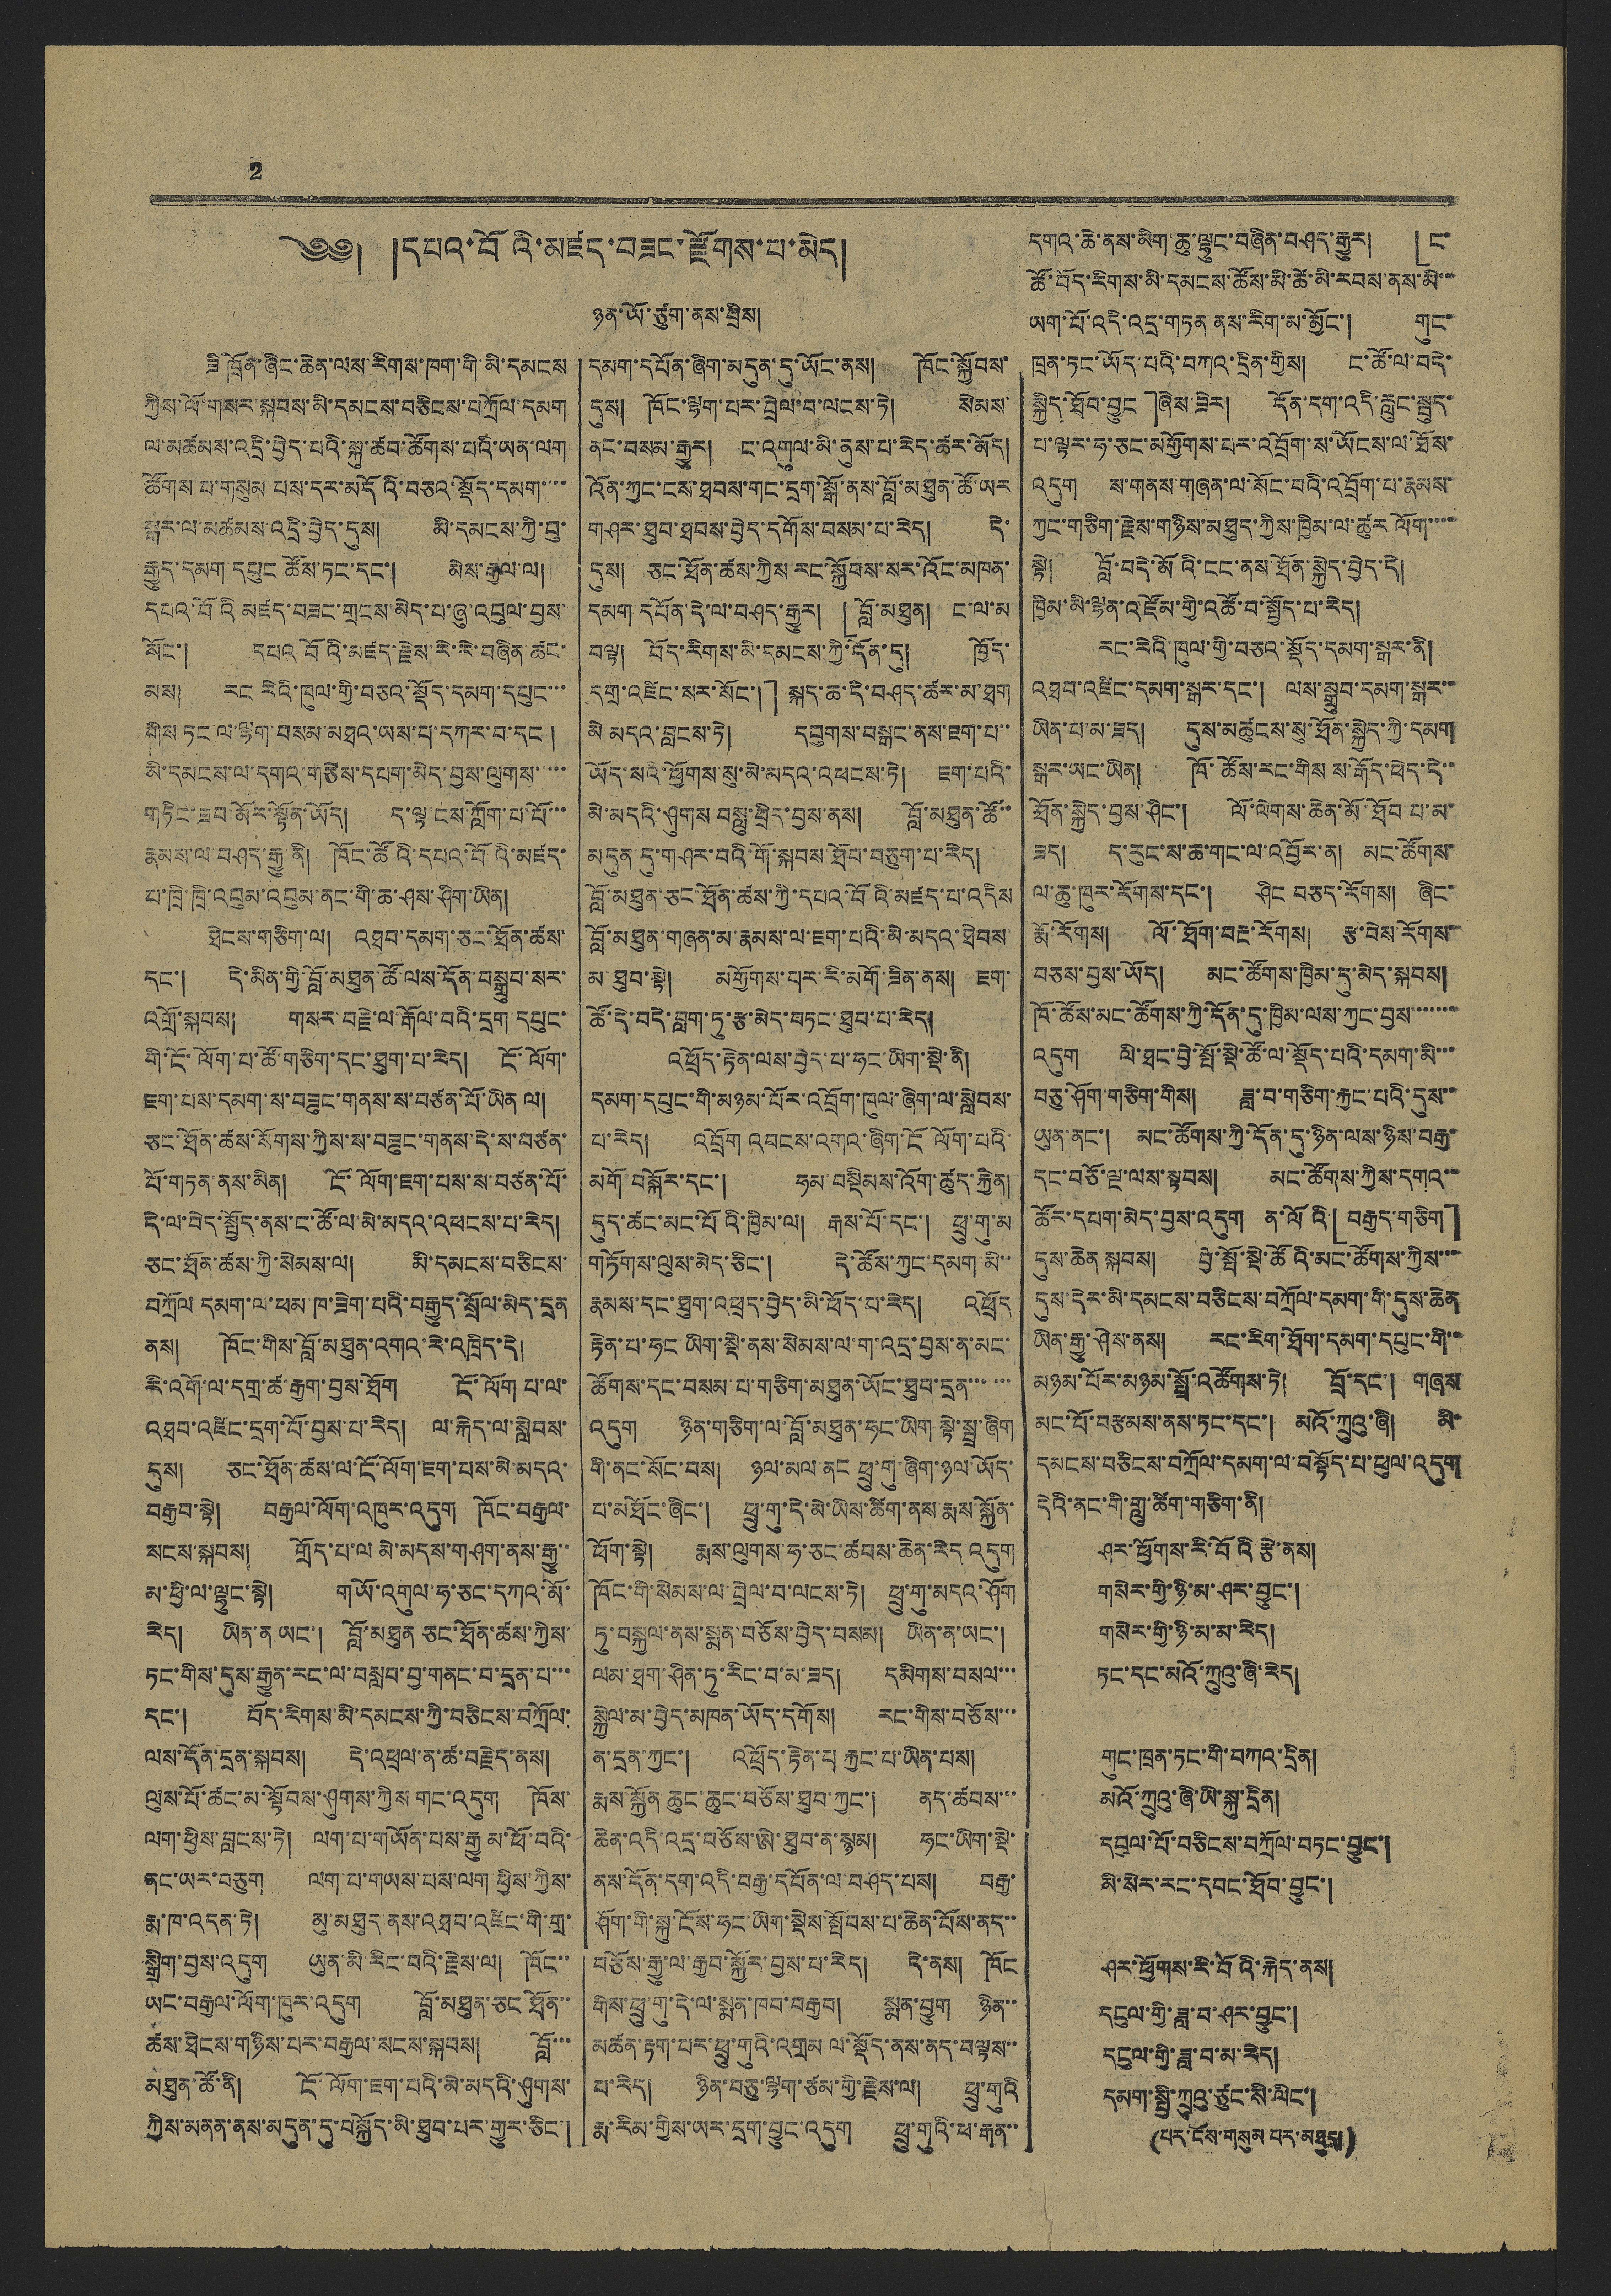2
༄༅། །དཔའ་བོའི་མཛད་བཟང་རྫོགས་པ་མེད།
ཉན་ཡོ་ཙུག་ནས་བྲིས།
ཟི ཁྲོན་ཞིང་ཆེན་ལས་རིགས་ཁག་གི་མི་དམངས
ཀྱིས་ལོ་གསར་སྐབས་མི་དམངས་བཅིངས་བཀྲོལ་དམག
ལ་མཚམས་འདྲི་བྱེད་པའི་སྐུ་ཚབ་ཚོགས་པའི་ཡན་ལག
ཚོགས་པ་གསུམ པས་དར་མདོའི་བཅའ་སྡོད་དམག་་་་
སྒར་ལ་མཚམས་འདྲི་བྱེད་དུས། མི་དམངས་ཀྱི་བུ་
རྒྱུད་དམག་དཔུང ཚོས་ཏང་དང་། མེས་རྒྱལ་ལ།
དཔའ་བོའི་མཛད་བཟང་གྲངས་མེད་པ་ཞུ་འབུལ་བྱས་
སོང་། དཔའ བོའི་མཛད་རྗེས་རེ་རེ་བཞིན་ཚང་
མས། རང རེའི་ཁུལ་གྱི་བཅའ་སྡོད་དམག་དཔུང་་་
གིས ཏང་ལ་ལྷག་བསམ་མཐའ་ཡས་པ་དཀར་བ་དང །
མི་དམངས་ལ་དགའ་གཙེས་དཔག་མེད་བྱས་ལུགས་་་་་
གཏིང་ཟབ་མོར་སྟོན་ཡོད། ད་ལྟ ངས་ཀློག་པ་པོ་་་
རྣམས་ལ་བཤད་རྒྱུ་ནི། ཁོང་ཚོའི་དཔའ་བོའི་མཛད་
པ་ཁྲི་ཁྲི་འབུམ་འབུམ་ནང་གི་ཆ་ཤད་ཤིག་ཡིན།
ཐེངས་གཅིག་ལ། འཐབ་དམག་ཅང་ཐོན་ཚས་
དང་། དེ་མིན་གྱི་བློ་མཐུན་ཚོ་ལས་དོན་བསྒྲུབ་སར་
འགྲོ་སྐབས། གསར་བརྗེ་ལ་རྒོལ་བའི་དྲག དཔུང་
གི་ངོ་ལོག་པ་ཚོ་གཅིག་དང་ཐུག་པ་རེད། ངོ་ལོག་
ཇག་པས་དམག་ས་བཟུང་གནས་ས་བཙན་པོ་ཡིན ལ།
ཅང་ཐོན་ཚས་སོགས་ཀྱིས་ས་བཟུང་གནས་དེ་ས་བཙན་
པོ་གཏན་ནས་མིན། ངོ་ལོག་ཇག་པས་ས་བཙན་པོ་
དེ་ལ་བེད་སྤྱོད་ནས་ང་ཚོ་ལ་མེ་མདའ་འཕངས་པ་རེད།
ཅང་ཐོན་ཚས་ཀྱི་སེམས་ལ། མི་དམངས་བཅིངས་
བཀྲོལ དམག་ལ་ཕམ་ཁ་ཟེག་པའི་བརྒྱུད་སྲོལ་མེད་དྲན
ནས། ཁོང་གིས་བློ་མཐུན་འགའ་རེ་འཁྲིད་དེ།
རི་འགོ་ལ་དགྲ་ཚ་རྒྱག་བྱས་ཐོག ངོ་ལོག པ་ལ་
འཐབ་འཛིང་དྲག་པོ་བྱས་པ་རེད། ལ་རྐེད་ལ་སླེབས་
དུས། ཅང་ཐོན་ཚས་ལ་ངོ་ལོག་ཇག་པས་མེ་མདའ་
བརྒྱབ་སྟེ། བརྒྱལ་ལོག་འཁུར་འདུག ཁོང་བརྒྱལ་
སངས་སྐབས། གྲོད་པ་ལ མེ་མདས་གཤག་ནས་རྒྱུ་་
མ་ཕྱི་ལ་ལྷུང་སྟེ། གཡོ་འགུལ་ཧ་ཅང་དཀའ་མོ་
རེད། ཡིན་ན ཡང་། བློ་མཐུན ཅང་ཐོན་ཚས་ཀྱིས
ཏང་གིས་དུས་རྒྱུན་རང་ལ་བསླབ་བྱ་གནང་བ་དྲན་པ་་་
དང་། བོད་རིགས་མི་དམངས་ཀྱི་བཅིངས་བཀྲོལ་
ལས་དོན་དྲན་སྐབས། དེ་འཕྲལ་ན་ཚ་བརྗེད་ནས།
ལུས་པོ་ཚང་མ་སྟོབས་ཤུགས་ཀྱིས གང་འདུག ཁོས་
ལག་ཕྱིས་བླངས་ཏེ། ལག་པ་གཡོན་པས་རྒྱུ མ་ཕོ་བའི་
ནང་ཡར་བཅུག ལག་པ་གཡས་པས་ལག ཕྱིས་ཀྱིས་
རྨ་ཁ་འདན་ཏེ། མུ་མཐུད ནས་འཐབ་འཛིང་གི་གྲ་
སྒྲིག་བྱས་འདུག ཡུན་མི་རིང་བའི་རྗེས་ལ། ཁོང་་
ཡང་བརྒྱལ་ལོག་ཁུར་འདུག བློ་མཐུན་ཅང ཐོན་་
ཚས་ཐེངས་གཉིས་པར་བརྒྱལ་སངས་སྐབས། བློ་་་
མཐུན་ཚོ་ནི། ངོ་ལོག་ཇག་པའི་མེ་མདའི་ཤུགས་
ཀྱིས་མནན་ནས་མདུན་དུ་བསྐྱོད་མི་ཐུབ་པར་གྱུར་ཅིང་།
དམག་དཔོན་ཞིག་མདུན་དུ་ཡོང་ནས། ཁོང་སྐྱོབས་
དུས། ཁོང་ལྷག་པར་བྲེལ་བ་ལངས་ཏེ། སེམས་
ནང་བསམ་རྒྱུར། ང་འགུལ་མི་ནུས་པ་རེད་ཚར་མོད།
འོན་ཀྱང་ངས་ཐབས་གང་དྲག་སྒོ་ནས་བློ་མཐུན་ཚོ་ཡར
གཤར་ཐུབ་ཐབས་བྱེད་དགོས་བསམ་པ་རེད། དེ་
དུས། ཅང་ཐོན་ཚས་ཀྱིས རང་སྐྱོབས་སར་འོང་མཁན་
དམག དཔོན་དེ་ལ་བཤད་རྒྱུར། 「བློ་མཐུན། ང་ལ་མ
བལྟ། བོད་རིགས་མི་དམངས་ཀྱི་དོན་དུ། ཁྱོད་
དགྲ་འཛིང་སར་སོང་།」སྐད་ཆ་དེ་བཤད་ཚར་མ་ཐག
མེ མདའ་བླངས་ཏེ། དབུགས་བསྒང་ནས་ཇག་པ་་
ཡོད་སའི་ཕྱོགས་སུ་མེ་མདའ་འཕངས་ཏེ། ཇག་པའི་
མེ་མདའི་ཤུགས བསླུ་བྲིད་བྱས་ནས། བློ་མཐུན་ཚོ་་
མདུན་དུ་གཤར་བའི་གོ་སྐབས་ཐོབ་བཅུག་པ་རེད།
བློ་མཐུན་ཅང་ཐོན་ཚས་ཀྱི་དཔའ་བོའི་མཛད་པ་འདིས
བློ་མཐུན་གཞན་མ་རྣམས་ལ་ཇག་པའི་མེ་མདའ་ཐེབས་
མ་ཐུབ་སྟེ། མགྱོགས་པར་རི་མགོ་ཟིན་ནས། ཇག་
ཚོ་དེ་བདེ་བླག་ཏུ་རྩ་མེད་བཏང་ཐུབ་པ་རེད།
འཕྲོད་རྟེན་ལས་བྱེད་པ་ཧང་ཡིག་སྡེ་ནི།
དམག་དཔུང་གི་མཉམ་པོར་འབྲོག་ཁུལ་ཞིག་ལ་སླེབས་
པ་རེད། འབྲོག འབངས་འགའ་ཞིག་ངོ ལོག་པའི་
མགོ བསྐོར་དང་། ཧམ་བསྡིམས་འོག་ཚུད་རྐྱེན།
དུད་ཚང་མང་པོའི་ཁྱིམ་ལ། རྒས་པོ་དང་། ཕྲུ་གུ་མ
གཏོགས་ལུས་མེད་ཅིང་། དེ་ཚོས་ཀྱང་དམག་མི་་
རྣམས་དང་ཐུག་འཕྲེད་བྱེད་མི་ཕོད་པ་རེད། འཕྲོད
རྟེན་པ་ཧང ཡིག་སྡེ་ནས་སེམས་ལ་ག་འདྲ་བྱས་ན་མང་
ཚོགས་དང་བསམ་པ་གཅིག་མཐུན་ཡོང་ཐུབ་དྲན་་་་་་
འདུག ཉིན་གཅིག་ལ་བློ་མཐུན་ཧང་ཡིག་སྟེ་སྦྲ་ཞིག
གི་ནང་སོང་བས། ཉལ་མལ་ནང ཕྲུ་གུ་ཞིག་ཉལ་ཡོད་
པ་མཐོང་ཞིང་། ཕྲུ་གུ་དེ་མེ་ཡིས་ཚིག་ནས་རྨས་སྐྱོན་
ཕོག་སྟེ། རྨས་ལུགས་ཧ་ཅང་ཚབས་ཆེན་རེད འདུག
ཁོང་གི་སེམས་ལ་བྲེལ་བ་ལངས་ཏེ། ཕྲུ་གུ་མདའ་ཤོག
ཏུ་བསྐྱལ་ནས་སྨན་བཅོས་བྱེད་བསམ། ཡིན་ན་ཡང་།
ལམ་ཐག་ཤིན་ཏུ་རིང་བ་མ་ཟད། དམིགས་བསལ་་་
སྐྱེལ་མ་བྱེད་མཁན་ཡོད་དགོས། རང་གིས་བཅོས་་་
ན་དྲན་ཀྱང་། འཕྲོད་རྟེན་པ རྐྱང་པ་ཡིན་པས།
རྨས་སྐྱོན ཆུང་ཆུང་བཅོས་ཐུབ་ཀྱང་། ནད་ཚབས་་་
ཆེན་འདི་འདྲ་བཅོས་ཨེ་ཐུབ་ན་སྙམ། ཧང་ཡིག་སྡེ་
ནས་དོན་དག་འདི་བརྒྱ་དཔོན་ལ་བཤད་པས། བརྒྱ་
ཤོག་གི་སྐུ་ངོས་ཧང་ཡིག་སྡེས་སྤོབས་པ་ཆེན་པོས་ནད་་
བཅོས་རྒྱུ་ལ་རྒྱབ་སྐྱོར་བྱས་པ་རེད། དེ་ནས། ཁོང
གིས་ཕྲུ་གུ་དེ་ལ་སྨན་ཁབ་བརྒྱབ། སྨན་བྱུག ཉིན་་
མཚན་རྟག་པར་ཕྲུ་གུའི་འགྲམ ལ་སྡོད་ནས་ནད་བལྟས་་
པ་རེད། ཉིན་བཅུ་ལྷག་ཙམ་གྱི་རྗེས་ལ། ཕྲུ་གུའི
རྨ་རིམ་གྱིས་ཡར་དྲག་བྱུང་འདུག ཕྲུ་གུའི་ཕ་རྒན་་
དགའ་ཆེ་ནས་མིག་ཆུ་ལྷུང་བཞིན་བཤད་རྒྱུར། 「ང་
ཚོ་བོད་རིགས་མི་དམངས་ཚོས་མི་ཚེ་མི་རབས་ནས་མི་་་
ཡག་པོ་འདི་འདྲ་གཏན ནས་རིག་མ་མྱོང་། གུང་
ཁྲན་ཏང་ཡོད་པའི་བཀའ་དྲིན་གྱིས། ང་ཚོ་ལ་བདེ་
སྐྱིད་ཐོབ་བྱུང」ཞེས་ཟེར། དོན་དག་འདི་རླུང་སྦུད་
པ་ལྟར་ཧ་ཅང་མགྱོགས་པར་འབྲོག་ས་ཡོངས་ལ་ཐོས་
འདུག ས་གནས་གཞན་ལ་སོངས་བའི་འབྲོག་པ་རྣམས་
ཀྱང་གཅིག་རྗེས་གཉིས་མཐུད་ཀྱིས་ཁྱིམ་ལ་ཚུར ལོག་་་་
སྟེ། བློ་བདེ་མོའི་ངང་ནས་ཐོན་སྐྱེད་བྱེད་དེ།
ཁྱིམ་མི་ལྷན་འཛོམ་གྱི་འཚོ་བ་སྤྱོད་པ་རེད།
རང་རེའི་ཁུལ་གྱི་བཅའ་སྡོད་དམག་སྒར་ནི།
འཐབ་འཛིང་དམག་སྒར་དང་། ལས་སྒྲུབ་དམག་སྒར་་
ཡིན་པ་མ་ཟད། དུས་མཚུངས་སུ་ཐོན་སྐྱེད་ཀྱི་དམག
སྒར་ཡང་ཡིན། ཁོ་ཚོས་རང་གིས ས་རྒོད་ཕེད་དེ་་
ཐོན་སྐྱེད་བྱས་ཤིང་། ལོ་ལེགས་ཆེན་མོ་ཐོབ པ་མ་
ཟད། ད་རུང་ས་ཆ་གང་ལ་འབྱོར་ན། མང་ཚོགས་
ལ་ཆུ་ཁུར་རོགས་དང་། ཤིང བཅད་རོགས། ཞིང་
རྨོ་རོགས། ལོ་ཐོག་བརྔ་རོགས། རྩ་བེས་རོགས་་
བཅས་བྱས་ཡོད། མང་ཚོགས་ཁྱིམ་དུ་མེད་སྐབས།
ཁོ་ཚོས་མང་ཚོགས་ཀྱི་དོན་དུ་ཁྱིམ་ལས་ཀྱང་བྱས་་་་་་་
འདུག ལི་ཐང་བྱེ་སྤོ་སྡེ་ཚོ་ལ་སྡོད་པའི་དམག་མི་་་
བཅུ་ཤོག་གཅིག་གིས། ཟླ་བ་གཅིག་རྐྱང་པའི་དུས་་
ཡུན་ནང་། མང་ཚོགས་ཀྱི་དོན་དུ་ཉིན་ལས་ཉིས་བརྒྱ་
དང་བཅོ་ལྔ་ལས་སྟབས། མང་ཚོགས་ཀྱིས་དགའ་་
ཚོར་དཔག་མེད་བྱས་འདུག ན་ལོའི་「བརྒྱད་གཅིག」
དུས་ཆེན སྐབས། བྱེ་སྤོ་སྡེ་ཚོའི་མང་ཚོགས་ཀྱིས་་་
དུས་དེར་མི་དམངས་བཅིངས་བཀྲོལ་དམག་གི་དུས་ཆེན
ཡིན་རྒྱུ་ཤེས་ནས། རང་རིག་ཐོག་དམག་དཔུང་གི་་
མཉམ་པོར་མཉམ་སྤྲོ་འཚོགས་ཏེ། བྲོ་དང་། གཞས
མང་པོ་བརྩམས་ནས་ཏང་དང་། མའོ་ཀྲུའུ་ཞི། མི་
དམངས་བཅིངས་བཀྲོལ་དམག་ལ་བསྟོད་པ་ཕུལ་འདུག
དའི་ནང་གི་གླུ་ཚིག་གཅིག་ནི།
ཤར་ཕྱོགས་རི་བོའི རྩེ་ནས།
གསེར་གྱི་ཉི་མ་ཤར་བྱུང་།
གསེར་གྱི་ཉི་མ་མ་རེད།
ཏན་དང་མའོ་ཀྲུའུ་ཞི་རེད།
གུང་ཁྲན་ཏང་གི་བཀའ་དྲིན།
མའོ་ཀྲུའུ་ཞི་ཡི་སྐུ་དྲིན།
དབུལ་པོ་བཅིངས་བཀྲོལ་བཏང་བྱུང་།
མི་སེར་རང་དབང་ཐོབ་བྱུང་།
ཤར་ཕྱོགས་རི་བོའི་རྐེད་ནས།
དངུལ་གྱི་ཟླ་བ་ཤར་བྱུང་།
དངུལ་གྱི་ཟླ་བ་མ་རེད།
དམག་སྤྱི་ཀྲུའུ་ཙུང་སི་ལིང་།
(པར་ངོས་གསུམ པར་མཐུད།)
